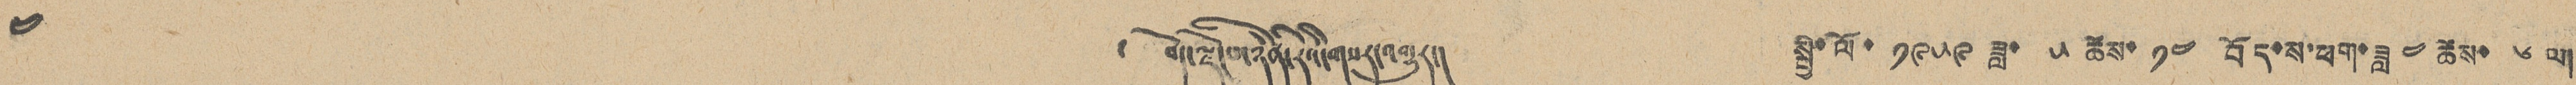༤ ༄ བོད་ལྗོངས་ཉིན་རེའི་གསར་འགྱུར། སྤྱི་ལོ་ ༡༩༥༩ ཟླ་ ༥ ཚེས་ ༡༤ བོད་ས་ཕག་ཟླ ༤ ཚེས་ ༦ ལ།
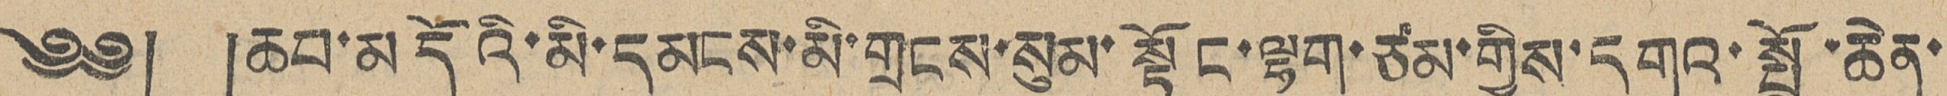༄༅། །ཆབ་མདོའི་མི་དམངས་མི་གྲངས་སུམ་སྟོང་ལྷག་ཙམ་གྱིས་དགའ་སྤྲོ་ཆེན་
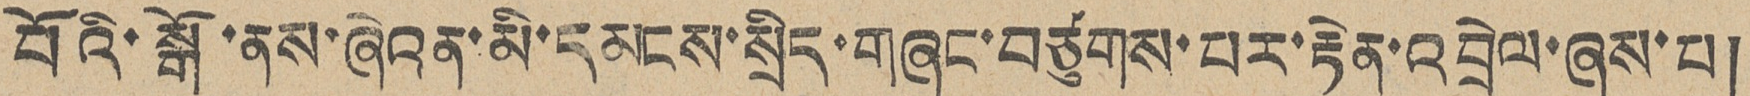པོའི་སྒོ་ནས་ཞེའན་མི་དམངས་སྲིད་གཞུང་བཙུགས་པར་རྟེན་འབྲེལ་ཞུས་པ།
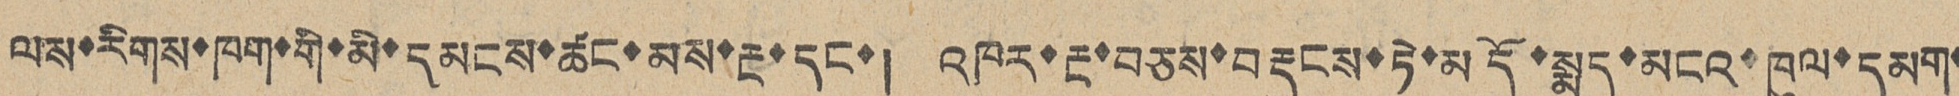ལས་རིགས་ཁག་གི་མི་དམངས་ཚང་མས་རྔ་དང་། འཁར་རྔ་བཅས་བརྡུངས་ཏེ་མདོ་སྨད་མངའ་ཁུལ་དམག་
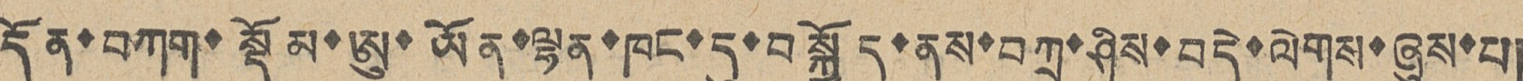དོན་བཀག་སྡོམ་ཨུ་ཡོན་ལྷན་ཁང་དུ་བསྐྱོད་ནས་བཀྲ་ཤིས་བདེ་ལེགས་ཞུས་པ།
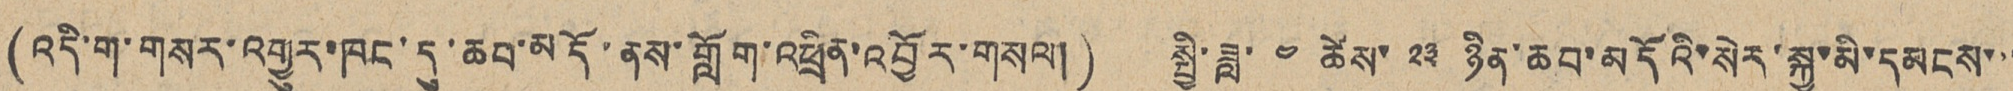(འདི་ག་གསར་འགྱུར་ཁང་དུ་ཆབ་མདོ་ནས་གློག་འཕྲིན་འབྱོར་གསལ།) སྤྱི་ཟླ་ ༤ ཚེས་ ༢༣ ཉིན་ཆབ་མདོའི་སེར་སྐྱ་མི་དམངས་་་
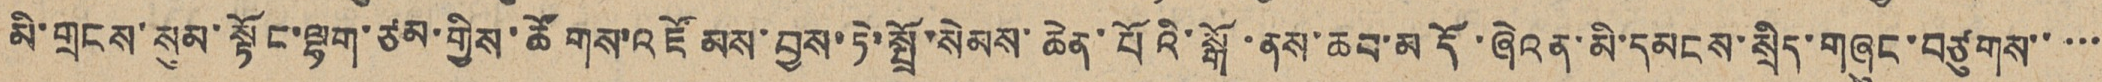མི་གྲངས་སུམ་སྟོང་ལྷག་ཙམ་གྱིས་ཚོགས་འཛོམས་བྱས་ཏེ་སྤྲོ་སེམས་ཆེན་པོའི་སྒོ་ནས་ཆབ་མདོ་ཞེའན་མི་དམངས་སྲིད་གཞུང་བཙུགས་་་་་
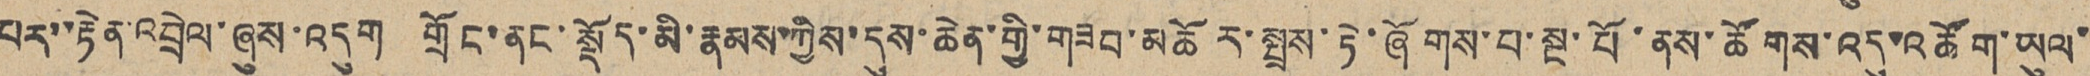པར་རྟེན་འབྲེལ་ཞུས་འདུག གྲོང་ནང་སྡོད་མི་རྣམས་ཀྱིས་དུས་ཆེན་གྱི་གཟབ་མཆོར་སྤྲས་ཏེ་ཞོགས་པ་སྔ་པོ་ནས་ཚོགས་འདུ་འཚོག་ཡུལ་
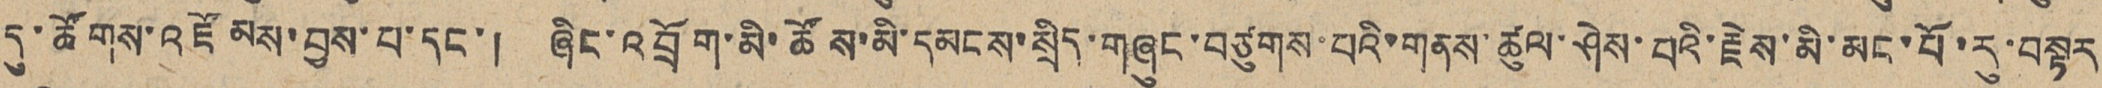དུ་ཚོགས་འཛོམས་བྱས་པ་དང་། ཞིང་འབྲོག་མི་ཚོས་མི་དམངས་སྲིད་གཞུང་བཙུགས་པའི་གནས་ཚུལ་ཤེས་པའི་རྗེས་མི་མང་པོ་རུ་བསྟར
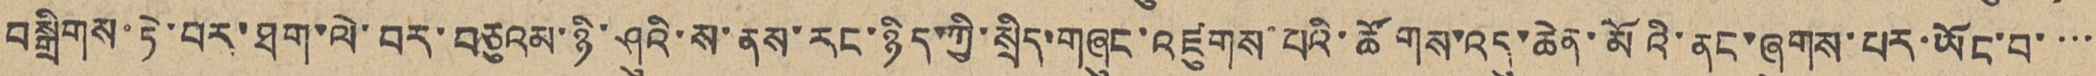བསྒྲིགས་ཏེ་བར་ཐག་ལེ་བར་བཅུའམ་ཉི་ཤུའི་ས་ནས་རང་ཉིད་ཀྱི་སྲིད་གཞུང་འཛུགས་པའི་ཚོགས་འདུ་ཆེན་མོའི་ནང་ཞུགས་པར་ཡོང་བ་་་་
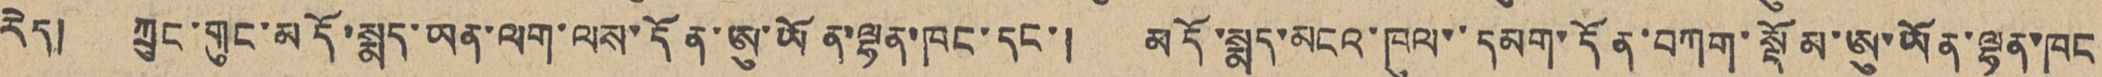རེད། ཀྲུང་གུང་མདོ་སྨད་ཡན་ལག་ལས་དོན་ཨུ་ཡོན་ལྷན་ཁང་དང་། མདོ་སྨད་མངའ་ཁུལ་་དམག་དོན་བཀག་སྡོམ་ཨུ་ཡོན་ལྷན་ཁང
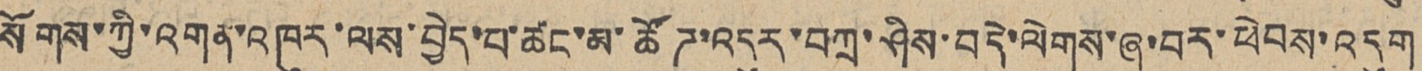སོགས་ཀྱི་འགན་འཁུར་ལས་བྱེད་པ་ཚང་མ་ཚོཊ་འདུར་བཀྲ་ཤིས་བདེ་ལེགས་ཞུ་བར་ཕེབས་འདུག
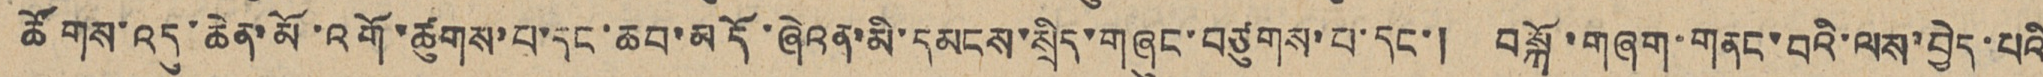ཚོགས་འདུ་ཆེན་མོ་འགོ་ཚུགས་པ་དང་ཆབ་མདོ་ཞེའན་མི་དམངས་སྲིད་གཞུང་བཙུགས་པ་དང་། བསྐོ་གཞག་གནང་བའི་ལས་བྱེད་པའི
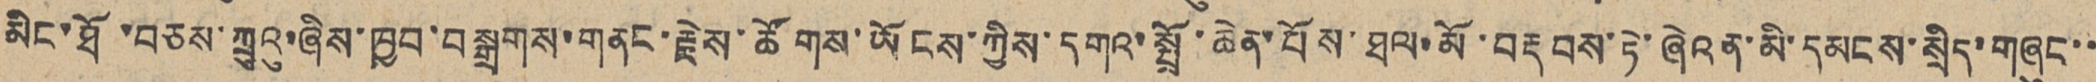མིང་ཐོ་བཅས་ཀྲུའུ་ཞིས་ཁྱབ་བསྒྲགས་གནང་རྗེས་ཚོགས་ཡོངས་ཀྱིས་དགའ་སྤྲོ་ཆེན་པོས་ཐལ་མོ་བརྡབས་ཏེ་ཞེའན་མི་དམངས་སྲིད་གཞུང་་
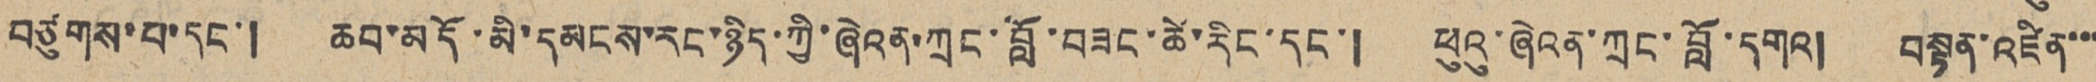བཙུགས་པ་དང་། ཆབ་མདོ་མི་དམངས་རང་ཉིད་ཀྱི་ཞེའན་ཀྲང་བློ་བཟང་ཚེ་རིང་དང་། ཕུའུ་ཞེའན་ཀྲང་བློ་དགའ། བསྟན་འཛིན་་་
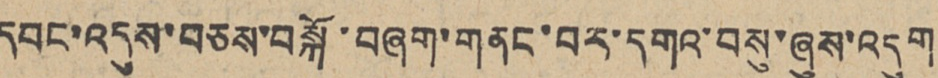དབང་འདུས་བཅས་བསྐོ་བཞག་གནང་བར་དགའ་བསུ་ཞུས་འདུག
